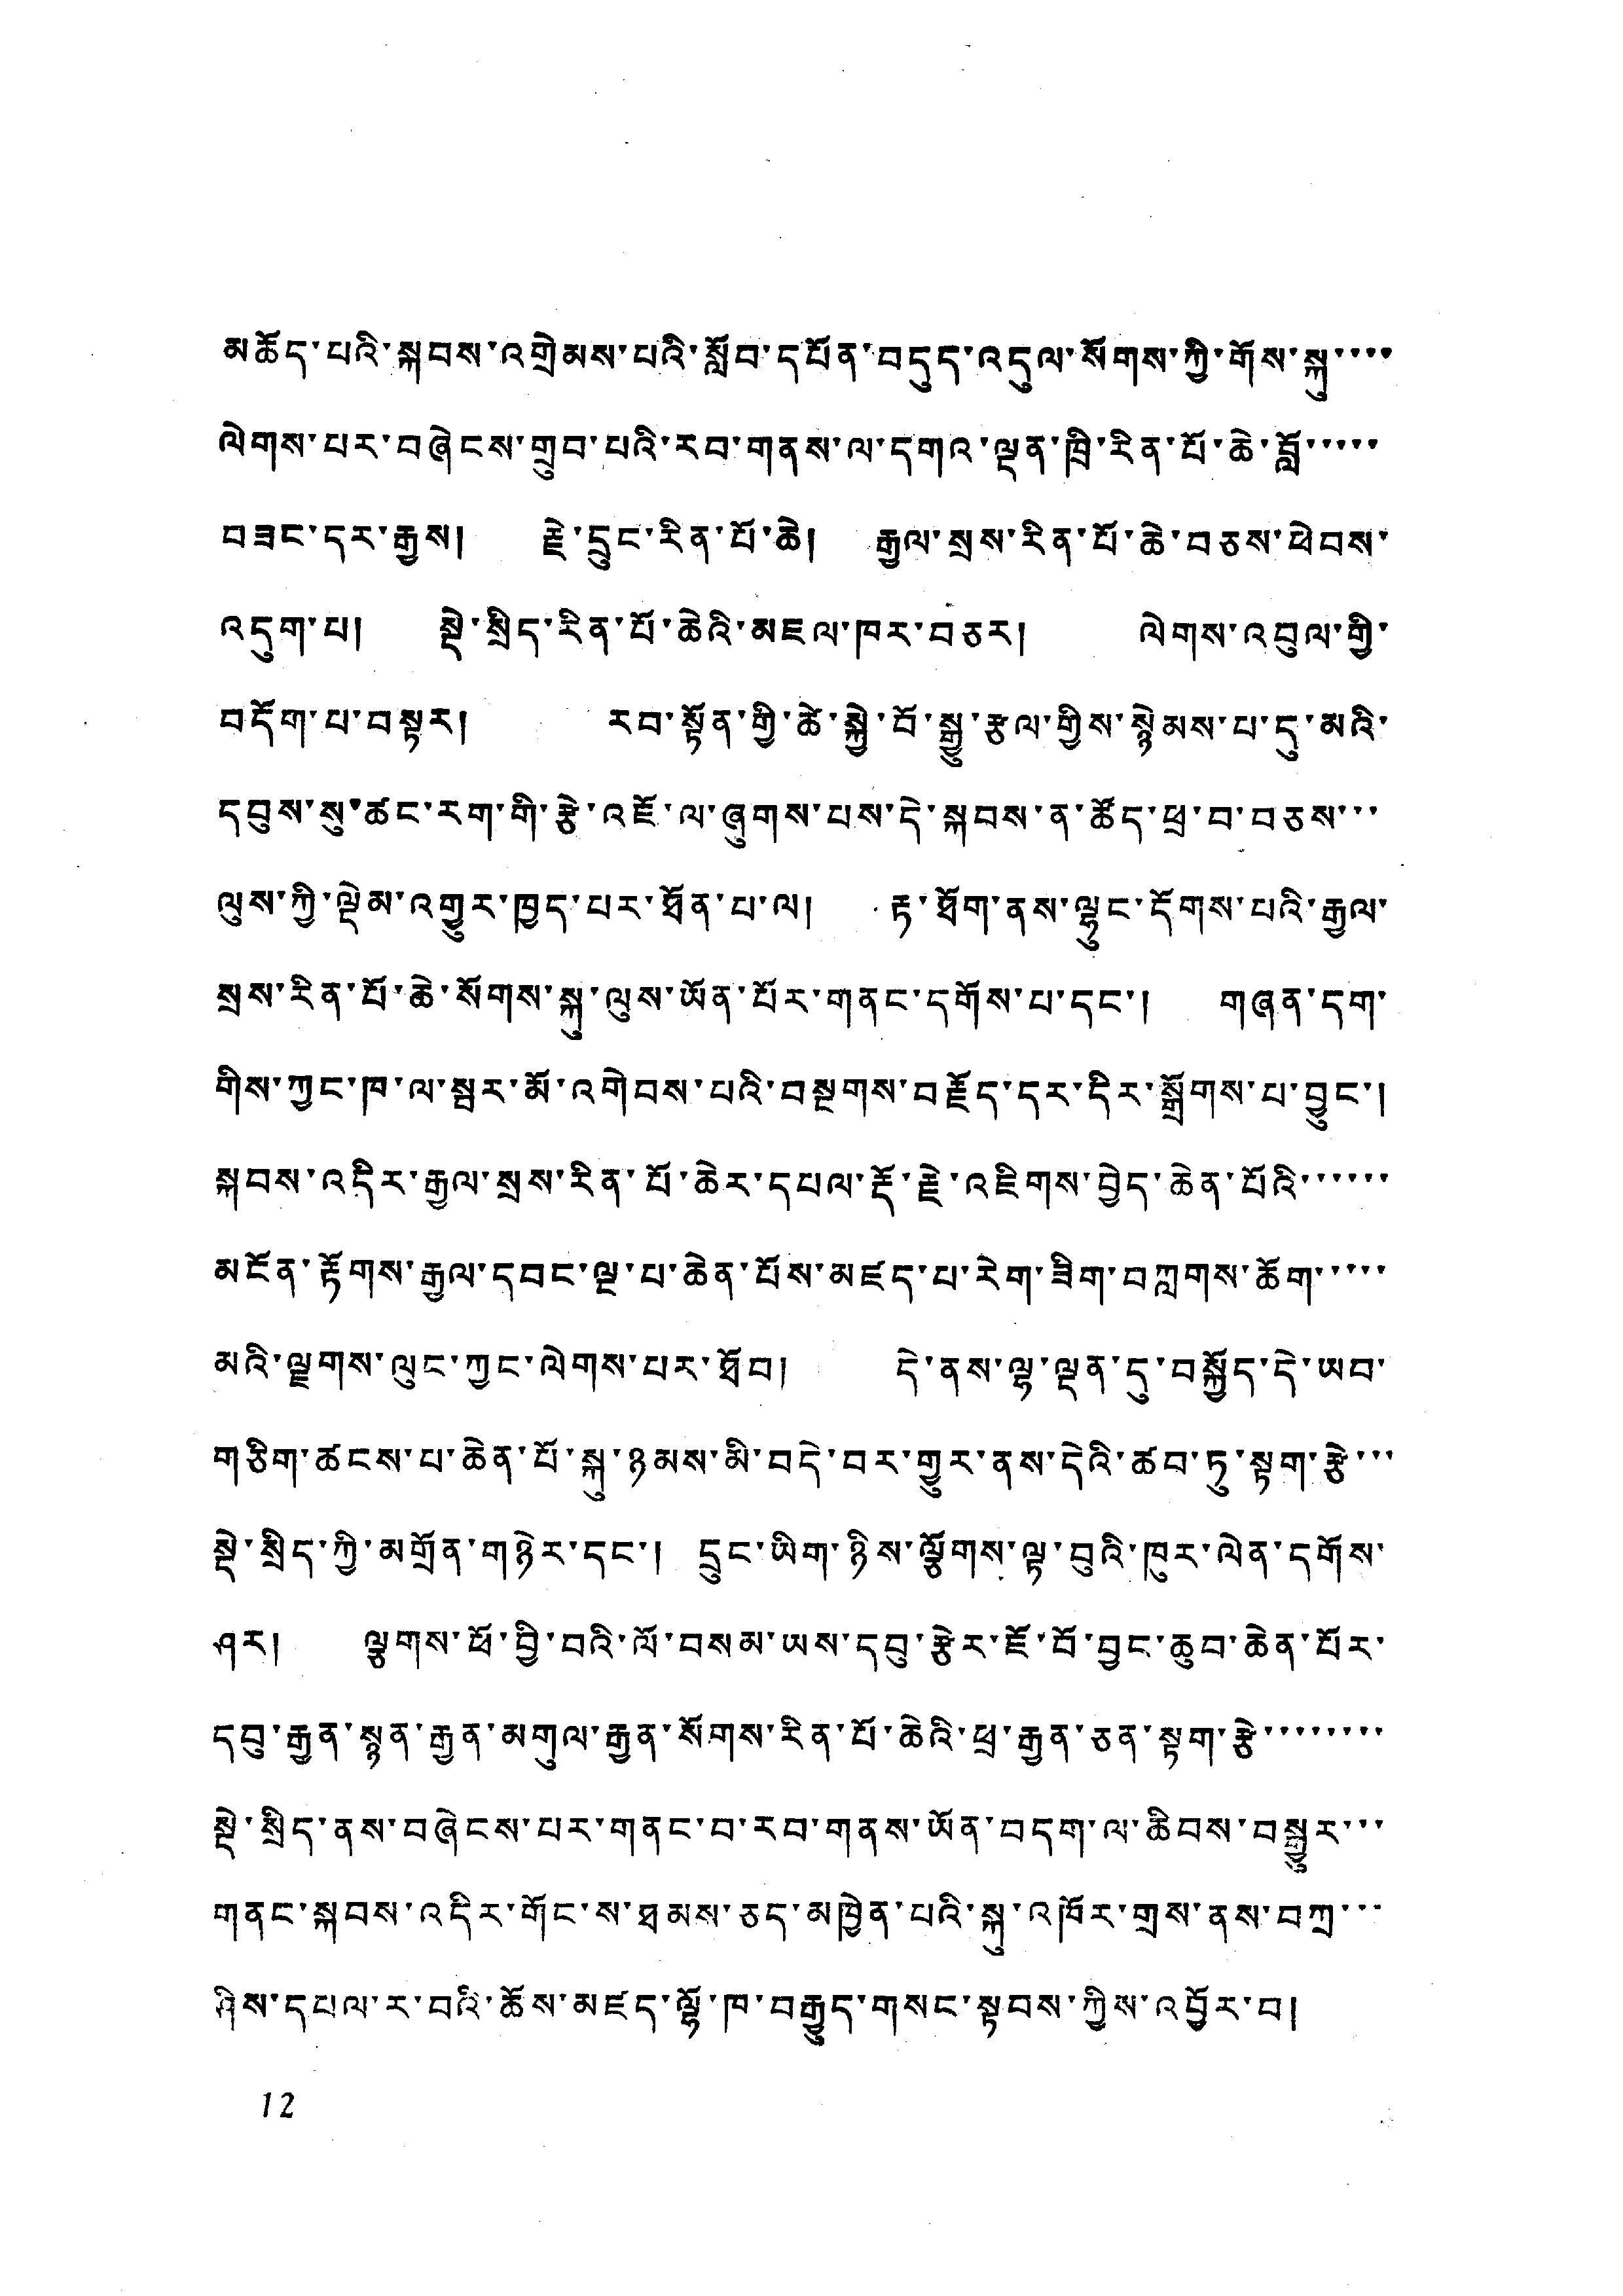མཆོད་པའི་སྐབས་འགྲེམས་པའི་སློབ་དཔོན་བདུད་འདུལ་སོགས་ཀྱི་གོས་སྐུ་་་་
ལེགས་པར་བཞེངས་གྲུབ་པའི་རབ་གནས་ལ་དགའ་ལྡན་ཁྲི་རིན་པོ་ཆེ་བློ་་་་་
བཟང་དུར་རྒྱས། རྗེ་དྲུང་རིན་པོ་ཆེ། རྒྱལ་སྲས་རིན་པོ་ཆེ་བཅས་ཕེབས་
འདུག་པ། སྡེ་སྲིད་རིན་པོ་ཆེའི་མཇལ་ཁར་བཅར། ལེགས་འབུལ་གྱི་
བདོག་པ་བསྟར། རབ་སྟོན་གྱི་ཚེ་སྐྱེ་བོ་སྐྱུ་རྩལ་གྱིས་སྙེམས་པ་དུ་མའི་
དབུས་སུ་ཚང་རག་གི་རྩེ་འཇོ་ལ་ཞུགས་པས་དེ་སྐབས་ན་ཚོད་ཕྲ་བ་བཅས་་་
ལུས་ཀྱི་ལྡེམ་འགྱུར་ཁྱད་པར་ཐོན་པ་ལ། རྟ་ཐོག་ནས་ལྷུང་དོགས་པའི་རྒྱལ་
སྲས་རིན་པོ་ཆེ་སོགས་སྐུ་ལུས་ཡོན་པོར་གནང་དགོས་པ་དང་། གཞན་དག་
གིས་ཀྱང་ཁ་ལ་སྦར་མོ་འགེབས་པའི་བསྔགས་བརྗོད་དར་དིར་སྒྲོགས་པ་བྱུང་།
སྐབས་འདིར་རྒྱལ་སྲས་རིན་པོ་ཆེར་དཔལ་རྡོ་རྗེ་འཇིགས་བྱེད་ཆེན་པོའི་་་་་་
མངོན་རྟོགས་རྒྱལ་དབང་ལྔ་པ་ཆེན་པོས་མཛད་པ་རེག་ཟིག་བཀླགས་ཆོག་་་་་
མའི་ལྗགས་ལུང་ཀྱང་ལེགས་པར་ཐོབ། དེ་ནས་ལྷ་ལྡན་དུ་བསྐྱོད་དེ་ཡབ་
གཅིག་ཚངས་པ་ཆེན་པོ་སྐུ་ཉམས་མི་བདེ་བར་གྱུར་ནས་དེའི་ཚབ་ཏུ་སྟག་རྩེ་་་
སྡེ་སྲིད་ཀྱི་མགྲོན་གཉེར་དང་། དྲུང་ཡིག་ཉིས་ལྕོགས་ལྟ་བུའི་ཁུར་ལེན་དགོས་
ཤར་། ལྕགས་ཕོ་བྱི་བའི་ལོ་བསམ་ཡས་དབུ་རྩེར་ཇོ་བོ་བྱང་ཆུབ་ཆེན་པོར་
དབུ་རྒྱན་སྙན་རྒྱན་མགུལ་རྒྱན་སོགས་རིན་པོ་ཆེའི་ཕྲ་རྒྱན་ཅན་སྟག་རྩེ་་་་་་་་
སྡེ་སྲིད་ནས་བཞེངས་པར་གནང་བ་རབ་གནས་ཡོན་བདག་ལ་ཆིབས་བསྒྱུར་་་
གནང་སྐབས་འདིར་གོང་ས་ཐམས་ཅད་མཁྱེན་པའི་སྐུ་འཁོར་གྲས་ནས་བཀྲ་་་
ཉིས་དཔལ་ར་བའི་ཆོས་མཛད་ལྷོ་ཁ་བརྒྱུད་གསང་སྟབས་ཀྱིས་འབྱོར་བ།
12
